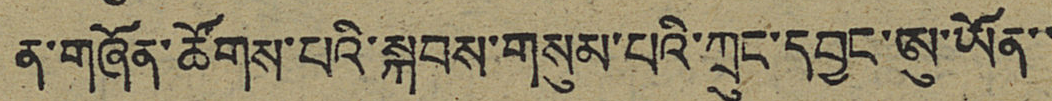ན་གཞོན་ཚོགས་པའི་སྐབས་གསུམ་པའི་ཀྲུང་དབྱང་ཨུ་ཡོན་་
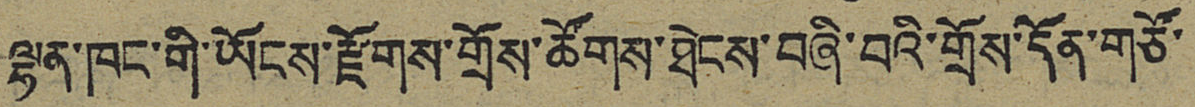ལྷན་ཁང་གི་ཡོངས་རྫོགས་གྲོས་ཚོགས་ཐེངས་བཞི་བའི་གྲོས་དོན་གཙོ་
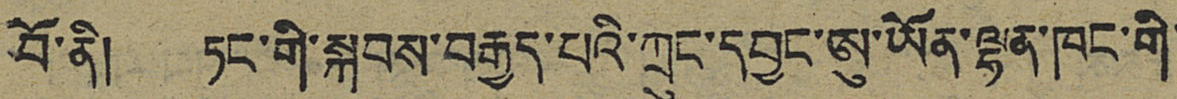བོ་ནི། ཏང་གི་སྐབས་བརྒྱད་པའི་ཀྲུང་དབྱང་ཨུ་ཡོན་ལྷན་ཁང་གི་
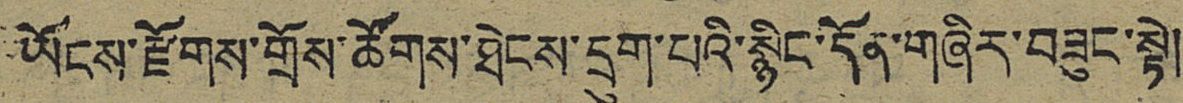ཡོངས་རྫོགས་གྲོས་ཚོགས་ཐེངས་དྲུག་པའི་སྙིང་དོན་གཞིར་བཟུང་སྟེ།
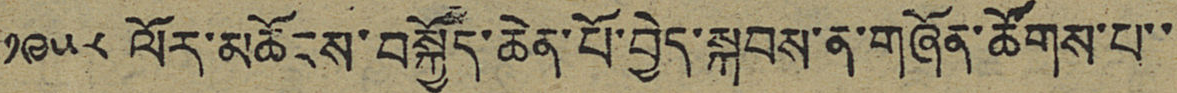༡༩༥༨ ལོར་མཆོངས་བསྐྱོད་ཆེན་པོ་བྱེད་སྐབས་ན་གཞོན་ཚོགས་པ་་
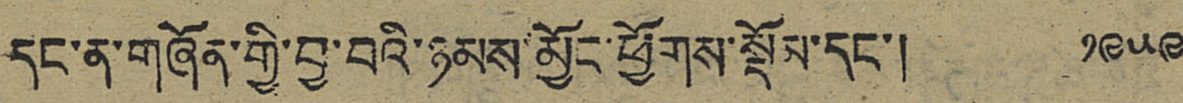དང་ན་གཞོན་གྱི་བྱ་བའི་ཉམས་མྱོང་ཕྱོགས་སྡོམ་དང་། ༡༩༥༩
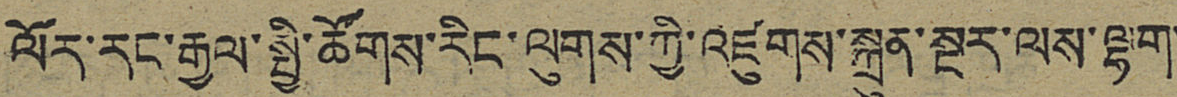ལོར་རང་རྒྱལ་སྤྱི་ཚོགས་རིང་ལུགས་ཀྱི་འཛུགས་སྐྲུན་སྔར་ལས་ལྷག་
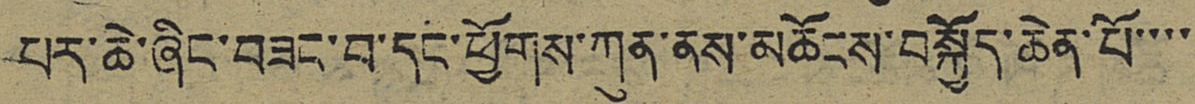པར་ཆེ་ཞིང་བཟང་བ་དང་ཕྱོགས་ཀུན་ནས་མཆོངས་བསྐྱོད་ཆེན་པོ་་་་
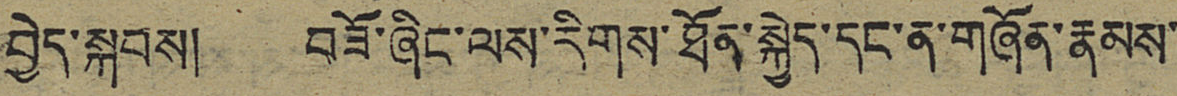བྱེད་སྐབས། བཟོ་ཞིང་ལས་རིགས་ཐོན་སྐྱེད་དང་ན་གཞོན་རྣམས་
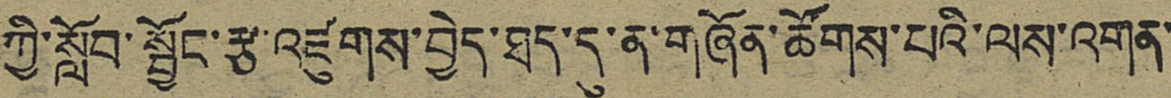ཀྱི་སློབ་སྦྱོང་རྩ་འཛུགས་བྱེད་ཐད་དུ་ན་གཞོན་ཚོགས་པའི་ལས་འགན་
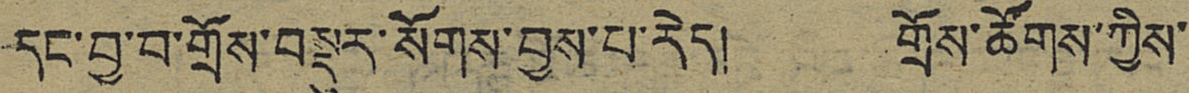དང་བྱ་བ་གྲོས་བསྡུར་སོགས་བྱས་པ་རེད། གྲོས་ཚོགས་ཀྱིས་
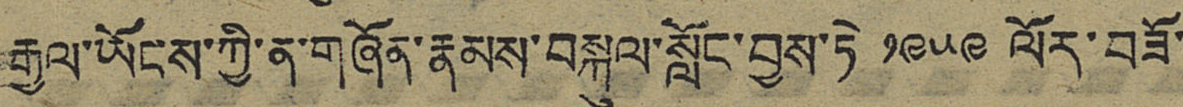རྒྱལ་ཡོངས་ཀྱི་ན་གཞོན་རྣམས་བསྐུལ་སློང་བྱས་ཏེ ༡༩༥༩ ལོར་བཟོ་
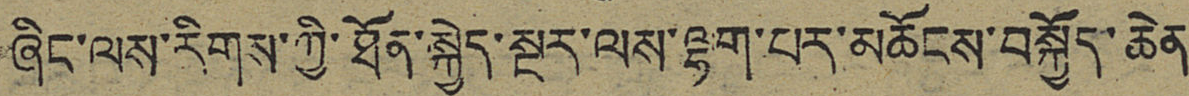ཞིང་ལས་རིགས་ཀྱི་ཐོན་སྐྱེད་སྔར་ལས་ལྷག་པར་མཆོངས་བསྐྱོད་ཆེན
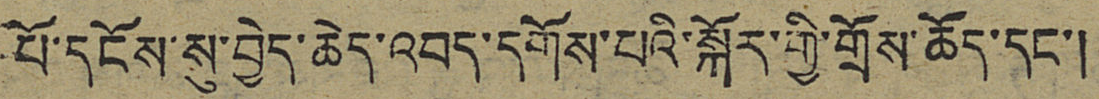པོ་དངོས་སུ་བྱེད་ཆེད་འབད་དགོས་པའི་སྐོར་གྱི་གྲོས་ཆོད་དང་།
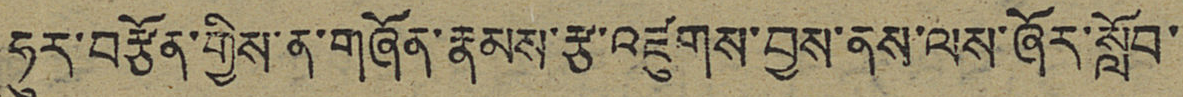ཧུར་བརྩོན་གྱིས་ན་གཞོན་རྣམས་རྩ་འཛུགས་བྱས་ནས་ལས་ཞོར་སློབ་
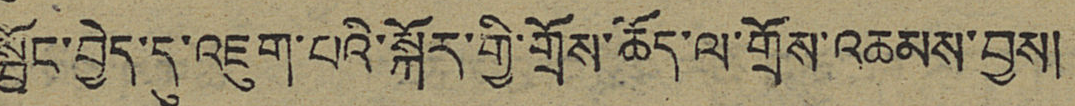སྦྱོང་བྱེད་དུ་འཇུག་པའི་སྐོར་གྱི་གྲོས་ཆོད་ལ་གྲོས་འཆམས་བྱས།
